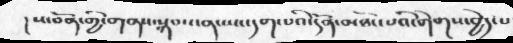།ས་བོན་གྱི་གནས་སྐབས་ན་ཡང་དག་པའི་དོན་མཐོང་པའི་གེགས་བྱེད་པ
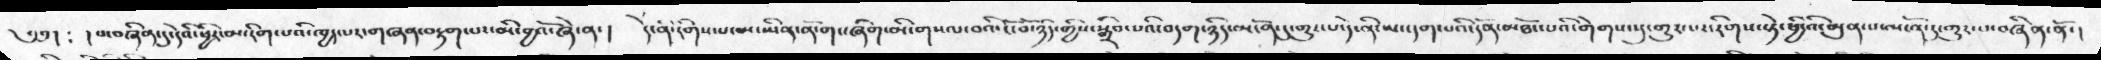༄༅།  ༴  །པ་བཞིན་དུ་དེའི་ཕྱིར་མ་རིག་པའི་ཁྱད་པར་གཞན་བརྟག་པར་མི་བྱའོ་ཞེ་ན་།  དེ་ནི་རིགས་པ་མ་ཡིན་ནོ་གང་ཞིག་མི་གསལ་བའི་ངོ་བོ་ཉིད་གྱིས་སྒྲིབ་པའི་བདག་ཉིད་མངོན་དུ་གྱུར་པ་དེ་ནི་ཡང་དག་པའི་དོན་མཐོང་པའི་གེགས་སུ་གྱུར་པར་རིགས་སྟེ་ཕྱི་འི་མུན་པ་མངོན་དུ་གྱུར་པ་བཞིན་ནོ་།
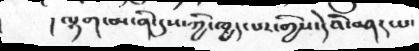།ལྷག་མ་ནི་དུས་ཀྱི་ཁྱད་པར་གྱིས་དེའི་བཤད་པ་
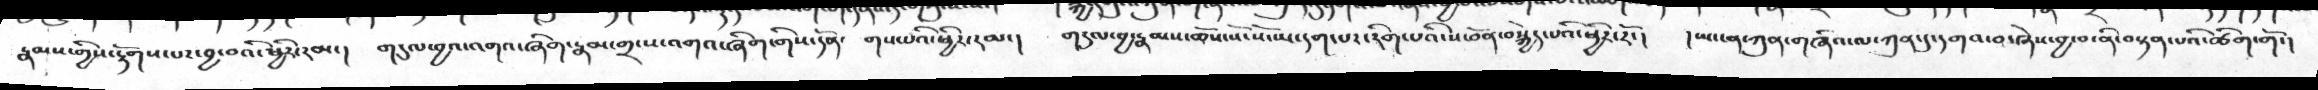རྣམས་གྱིས་རྟོགས་པར་བྱ་བའི་ཕྱིར་རམ་།   གདུལ་བྱའ་འགའ་ཞིག་རྣམ་གྲངས་འགའ་ཞིག་གིས་དོན་ གསངཔའི་ཕྱིར་རམ་།   གདུལ་བྱ་རྣམས་ཆོས་སོ་སོ་ཡང་དག་པར་རིག་པའི་ས་བོན་བསྐྱེད་པའི་ཕྱིར་རོ་།  །ཡང་ན་ཀུན་གཞིའ་ལ་ཀུན་དུ་དགའ་བ་ཞེས་བྱ་བ་ནི་བསྟན་པའི་ཚིག་གོ་།
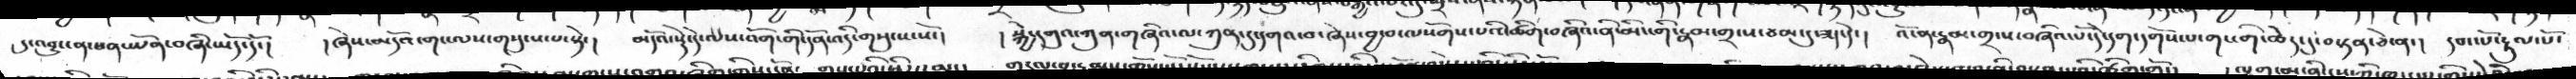དུ་འབྱུང་ན་ཕན་ཡོན་བཞི་ཡོད་དོ་།   །ཞེས་མདོའ་གང་ལས་གསུངས་པ་སྟེ་།   མདོའ་སྡེ་དེ་ལས་འོག་གི་དོན་འདི་གསུངས་སོ་།   །སྐྱེ་དགུའ་ཀུན་གཞིའ་ལ་ཀུན་དུ་དགའ་བ་ཞེས་བྱ་བ་ལསོགས་པའི་ཚིག་བཞིའ་ནི་མིང་གི་རྣམ་གྲངས་ཙམ་དུ་ཟད་དེ་།  འོ་ན་རྣམ་གྲངས་བཞི་པོ་དེ་དག་དགོས་པ་གང་གི་ཆེད་དུ་བསྟན་ཅེ་ན་།  དབང་པོ་རྟུལ་པོ་
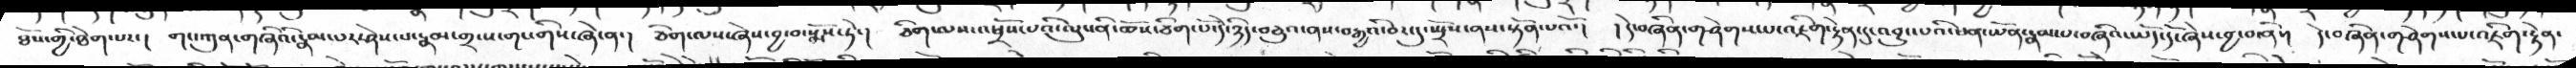ཐོས་གྱི་ཐེག་པར་།  གང་ཀུན་གཞིའི་རྣམ་པར་ཤེས་པ་རྣམ་གྲངས་གང་གིས་ཞེ་ན་།  ཅིག་ལས་ཞེས་བྱ་བ་སྨོས་ཏེ་།  ཅིག་ལས་འཕྲོས་པའི་ལུང་ནི་ཆོས་ཅིག་པོ་དེ་ཉིད་བཅུའ་ནས་བརྒྱའི་བར་དུ་སྤྲོས་ནས་སྟོན་པའོ་།  །དེ་བཞིན་གཤེགས་པ་འཇིག་རྟེན་དུ་འབྱུང་པའི་ཕན་ཡོན་རྣམ་པ་བཞིའ་ཡོད་དོ་ཞེས་བྱ་བ་ནི་།  དེ་བཞིན་གཤེགས་པ་འཇིག་རྟེན་
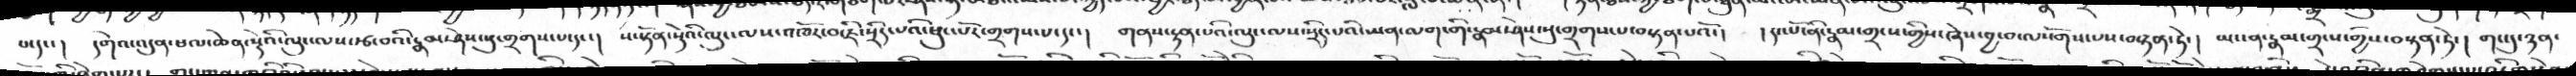པ་དང་།   དགེའ་འདུན་ཕལ་ཆེན་སྡེའི་ལུང་ལས་རྩ་བའི་རྣམ་ཤེས་སུ་གྲགས་པ་དང་།  ས་སྟོན་སྡེའི་ལུང་ལས་འཁོར་བ་ཇི་སྲིད་པའི་ཕུང་པོར་གྲགས་པ་དང་།   གནས་རྟན་པའི་ལུང་ལས་སྲིད་པའི་ཡན་ལག་གི་རྣམ་ཤེས་སུ་གྲགས་པ་བསྟན་པའོ་།   །དང་པོ་ནི་རྣམ་གྲངས་གྱིས་ཞེས་བྱ་བ་ལ་ལསོགས་པས་བསྟན་ཏེ་།  ཡང་ན་རྣམ་གྲངས་གྱིས་བསྟན་ཏེ་།  གང་དུ་ཉན་
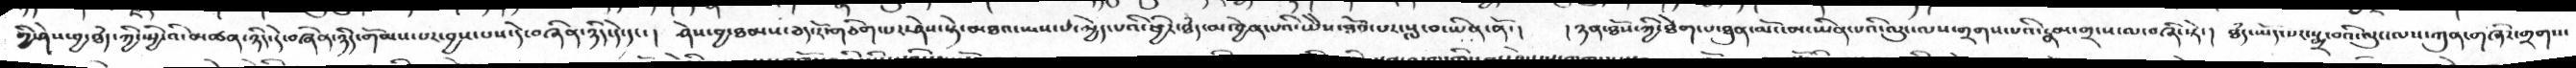གྱི་ཤེས་བྱ་ཐདཾ་ཀྱི་སྤྱི་འི་མཚན་ཉིད་དེ་བཞིན་ཉིད་གོམས་པར་བྱས་པས་དེ་བཞིན་ཉིད་དེ་དང་།  ཤེས་བྱ་ཐམས་ཅད་རོ་གཅིག་པར་ཤེས་སྟེ་མཐའ་ཡས་པ་མྱེད་པའི་ཕྱིར་ཐདཾ་མཁྱེན་པའི་ཡེེས་ཐོབ་པར་སླ་བ་ཡིན་ནོ་།  །ཉན་ཐོས་ཀྱི་ཐེག་པ་ཐུན་མོང་མ་ཡིན་པའི་ལུང་ལས་གྲགས་པའི་རྣམ་གྲངས་ལ་བཞི་སྟེ་།  ཐདཾ་ཡོད་པར་སྨྲ་བའི་ལུང་ལས་ཀུན་གཞིར་གྲགས་
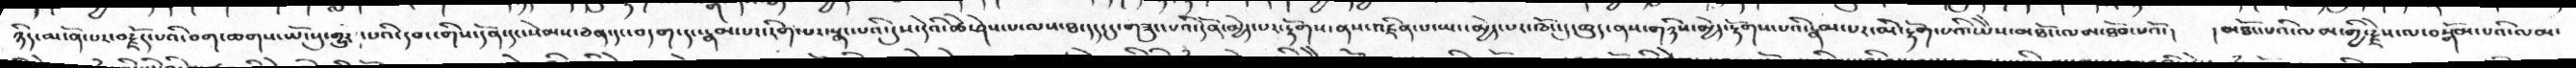ཉིད་མངོན་པར་བརྗོད་པའི་བག་ཆགས་ཡོངསུ་གྱུར་པའི་དབང་གིས་དོན་དང་སེམས་ཅན་དང་བདག་དང་རྣམ་པར་རིག་པར་སྣང་པའི་དུས་དེའི་ཚེ་ཤེས་པ་ལས་ཐ་དད་དུ་གཟུང་པའི་དོན་མྱེད་པར་རྟོགས་ནས་འཛིན་པ་ཡང་མྱེད་པར་ཁོང་དུ་ཆུད་ནས་གཉིས་མྱེད་རྟོགས་པའི་རྣམ་པར་མི་རྟོག་པའི་ཡེེས་མཐོང་ལམ་ཐོབ་པའོ་།  །མཐོང་པའི་ལམ་གྱི་རྗེས་ལ་བསྒོམ་པའི་ལམ་
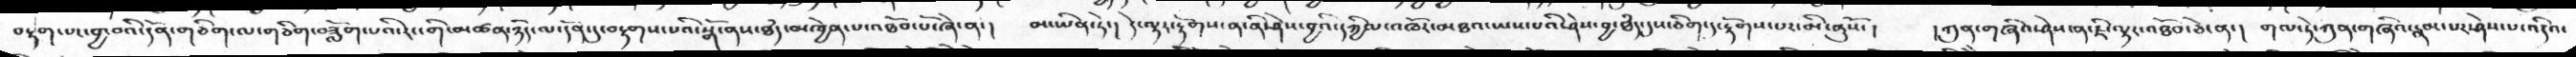བརྟག་པར་བྱ་བའི་དོན་གཅིག་ལ་གཅིག་བཟློག་པའི་རང་གི་མཚན་ཉིད་ལ་དོན་དུ་བརྟགས་པའི་སྒོ་ནས་ཐདཾ་མཁྱེན་པ་འཐོབ་པོ་ཞེ་་ན་།  མ་ཡིན་ཏེ་།  དེ་ལྟར་རྟོགས་ན་ནི་ཤེས་བྱའི་དཀྱིལ་འཁོར་མཐའ་ཡས་པའི་ཤེས་བྱ་ཐདཾ་དུས་ཅིག་དུ་རྟོགས་པར་མི་ནུསོ་།  །ཀུན་གཞིའ་ཤེས་ན་ཇི་ལྟར་འཐོབ་ཅེ་ན་།  གལ་ཏེ་ཀུན་གཞིའ་རྣམ་པར་ཤེས་པ་འདིའ་
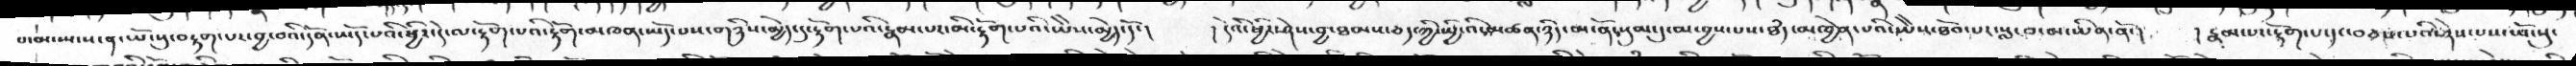པ་མ་སྤངས་ན་ཡོངསུ་བརྟག་པར་བྱ་བའི་དོན་ཡོད་པའི་ཕྱིར་དེ་ལ་རྟོག་པའི་རྟོག་མཁན་ཡོད་པས་གཉིས་མྱེད་དུ་རྟོག་པའི་རྣམ་པར་མི་རྟོག་པའི་ཡེེས་མྱེད་དོ་།  །དེའི་ཕྱིར་ཤེས་བྱ་ཐམས་ཅད་ཀྱི་སྤྱི་འི་མཚན་ཉིད་མངོན་སུམ་དུ་མ་བྱས་པས་ཐདཾ་མཁྱེན་པའི་ཡེེས་ཐོབ་པར་སླ་བ་མ་ཡིན་ནོ་།  །རྣམ་པར་རྟོག་པ་དང་བཅས་པའི་ཤེས་པས་ཡོངསུ་
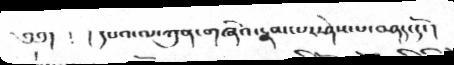༄༅།  ༴ ། དཔའ་ལ་ཀུན་གཞིའ་རྣམ་པར་ཤེས་པ་བཤད་དོ་།
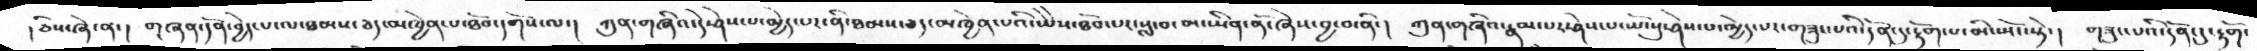།ཅིས་ཞེ་ན་།  གཞན་དོན་བྱེད་པ་ལ་ཐམས་ཅད་མཁྱེན་པ་ཐོབ་དགོས་ལ་།  ཀུན་གཞིའ་དེ་ཤེས་པ་མྱེད་པར་ནི་ཐམས་ཅད་མཁྱེན་པའི་ཡེེས་ཐོབ་པར་སླ་བ་མ་ཡིན་ནོ་ཞེས་བྱ་བ་ནི་།  ཀུན་གཞིའ་རྣམ་པར་ཤེས་པ་ཡོངསུ་ཤེས་པ་མྱེད་པར་གཟུང་པའི་དོན་དུ་རྟོག་པ་མི་ཡོང་སྟེ་།  གཟུང་པའི་དོན་དུ་རྟོག་
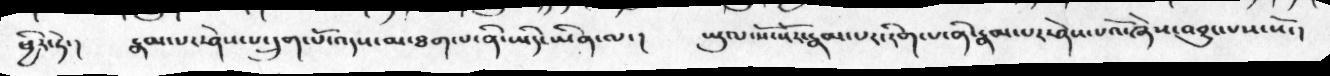ཕྱིར་ཏེ་།  རྣམ་པར་ཤེས་པ་དྲུག་པོ་འདས་མ་ཐག་པ་ནི་ཡིད་ཡིན་ལ་།  ཡུལ་སོ་སོར་རྣམ་པར་རིག་པ་ནི་རྣམ་པར་ཤེས་པའོ་ཞེས་འབྱུང་པས་སོ་།
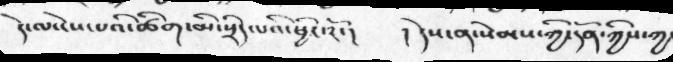དེ་ལ་ངེས་པའི་ཚིག་མི་སྲིད་པའི་ཕྱིར་རོ་།    །དེས་ན་སེམས་ཀྱི་དོན་ཀྱིས་ཀྱ
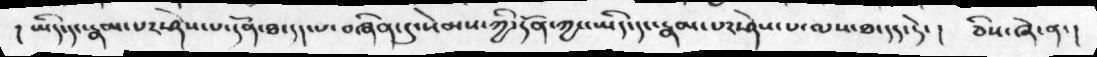། ཡིད་དང་རྣམ་པར་ཤེས་པ་དོན་ཐ་དད་པ་བཞིན་དུ་སེམས་ཀྱི་དོན་ཀྱང་ཡིད་དང་རྣམ་པར་ཤེས་པ་ལས་ཐ་དད་དེ་།  ཅིས་ཞེ་ན་།
